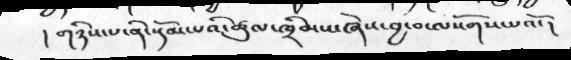། གཉིས་པ་ནི་སྡོམ་པའི་ཚུལ་ཁྲིམས་ཞེས་བྱ་བ་ལསོགས་པའོ་།
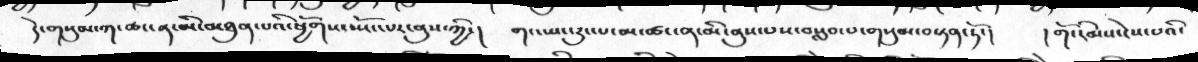དེ་གསུམ་ཀ་ཚང་ན་མི་མཐུན་པའི་ཕྱོགས་སྤོང་པར་ནུས་ཀྱི་།   གང་ཡང་རུང་པ་མ་ཚང་ན་མི་ནུས་པས་བསླབ་པ་གསུམ་བསྟན་ཏོ་།   །གོ་རིམས་ངེས་པའི་
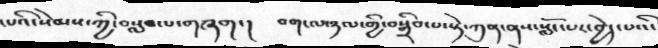་པའི་སེམས་ཀྱི་བསླབ་པ་གཞག་།   བག་ལ་ཉལ་གྱི་བསྒྲིབ་པ་སྟེ་ཀུན་ནས་སློང་པར་བྱེད་པའི་
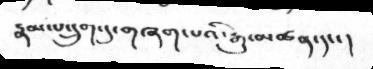རྣམ་པ་དྲུག་དུ་གཞག་པའི་རྒྱུ་མཚན་དང་།
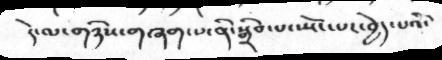དེ་ལ་གཉིས་གཞག་པ་ནི་སྒྲིབ་པ་སྤོང་པར་བྱེད་པའི་
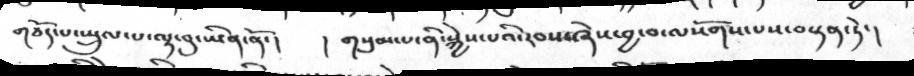གཅོད་པ་སྤྲུལ་པ་ལྟ་བུ་ཡིན་ནོ་།    ། གསུམ་པ་ནི་སྐྱེས་པའི་རབས་ཞེས་བྱ་བ་ལསོགས་པས་བསྟན་ཏེ་།
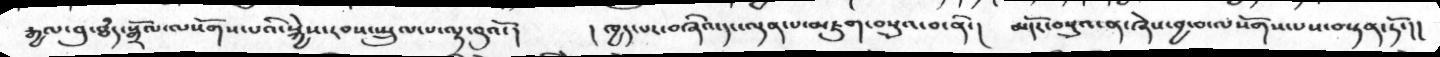རྒྱལ་བུ་ཐཾད་སྒྲོལ་ལསོགས་པའི་སྐྱེས་རབས་སྤྲུལ་པ་ལྟ་བུའོ་།   ། ཁྱད་པར་བཞིའ་དང་ལྡན་པ་མཇུག་བསྡུའ་བ་ནི་།   མདོར་བསྡུའ་ན་ཞེས་བྱ་བ་ལསོགས་པས་བསྟན་ཏོ་།།
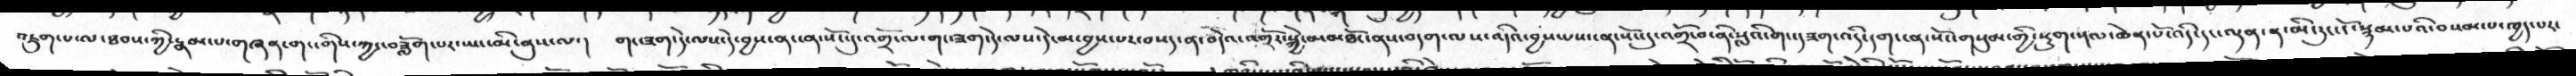འཇུག་པ་ལ་ཐབས་ཀྱི་རྣམ་པ་གཞན་གང་གིས་ཀྱང་བཟློག་པར་ཡང་མི་ནུས་ལ་།     གང་ཟག་དེ་ལས་དེ་བྱས་ན་ངན་སོང་དུ་འགྲོ་ལ་གང་ཟག་དེ་ལས་དེ་མ་བྱས་པར་བསད་ན་བདེའ་འགྲོར་སྐྱེ་བ་མཐོང་ནས་བདག་ལས་འདིའ་བྱས་པས་ངན་སོང་དུ་འགྲོ་བ་ནི་སླའི་གང་ཟག་འདི་དག་ངན་སོང་གསུམ་གྱི་སྡུག་སྔལ་ཆེན་པོ་འདི་དང་ལྡན་ན་མི་རུང་ངོ་སྙམ་པའི་བསམ་པ་ཁྱད་པར་
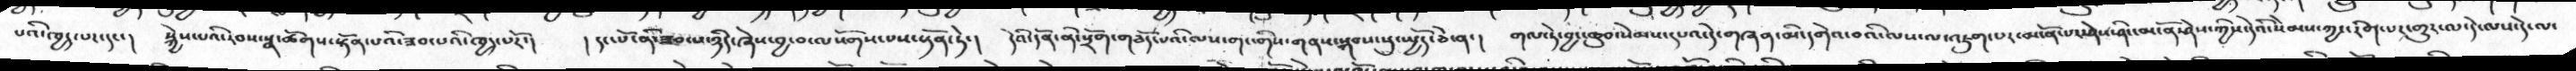པའི་ཁྱད་པར་དང་།  སྐྱེས་པའི་རབས་སྣ་ཚོགས་སྟོན་པའི་ཟབ་པའི་ཁྱད་པརོ་།  །དང་པོ་ནི་ཟབ་པ་ཉིད་ཞེས་བྱ་བ་ལསོགས་པས་སྟོན་ཏེ་།   དེའི་དོན་ནི་སྲོག་གཅོད་པའི་་ལས་གང་གིས་གནས་སྐབས་སུ་སྤྱོད་ཅེ་ན་།  གལ་ཏེ་བྱང་ཆུབ་སེམས་དཔའ་དེ་གཞན་མི་དགེ་བའི་ལས་ལ་འཇུག་པར་མངོན་པར་ཤེས་ཤིང་མངོན་ཤེས་ཀྱིས་དེའི་སེམས་ཀྱང་རིག་པར་གྱུར་ལ་དེ་ལས་དེ་ལ་
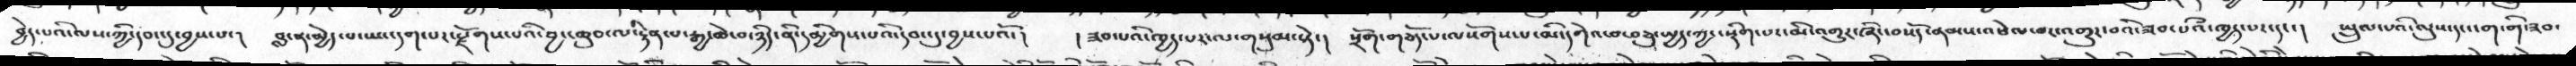བྱེད་པའི་ལས་ཀྱི་དབང་དུ་བྱས་པ་།  བླ་ན་མྱེད་པ་ཡང་དག་པར་རྫོགས་པའི་བྱང་ཆུབ་ལ་རྟེན་པ་རྒྱ་ཆེ་བ་ཉིད་ནི་དམྱིགས་པའི་དབང་དུ་བྱས་པའོ་།  །ཟབ་པའི་ཁྱད་པར་ལ་གསུམ་སྟེ་།  སྲོག་གཅོད་པ་ལསོགས་པ་མི་དགེའ་བ་བཅུ་སྤྱད་ཀྱང་སྡིག་པར་མི་འགྱུར་ཞིང་བསོད་ནམས་འཕེལ་བར་འགྱུར་བའི་ཟབ་པའྀ་ཁྱད་པར་དང་།  སྤྲུལ་པའི་ལུས་དང་ངག་གི་ཟབ་
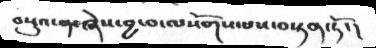བསྡུའ་ན་ཞེས་བྱ་བ་ལསོགས་པས་བསྟན་ཏོ་།
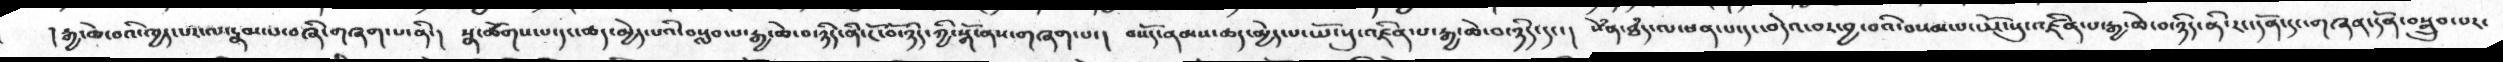། རྒྱ་ཆེ་བའི་ཁྱད་པར་ལ་རྣམ་པ་བཞི་གཞག་པ་ནི་།  སྣ་ཚོགས་པ་དང་ཚད་མྱེད་པའི་བསླབ་པ་རྒྱ་ཆེ་བ་ཉིད་ནི་ངོ་བོ་ཉིད་ཀྱི་སྒོ་ནས་གཞག་པ་།  བསོད་ནམས་ཚད་མྱེད་པ་ཡོངསུ་འཛིན་པ་རྒྱ་ཆེ་བ་ཉིད་དང་།  སེནཾ་ཐཾད་ལ་ཕན་པ་དང་བདེའ་བར་བྱ་བའི་བསམ་པ་ཡོངསུ་འཛིན་པ་རྒྱ་ཆེ་བ་ཉིད་ནི་རང་དོན་དང་གཞན་དོན་བསྒྲུབ་པར་
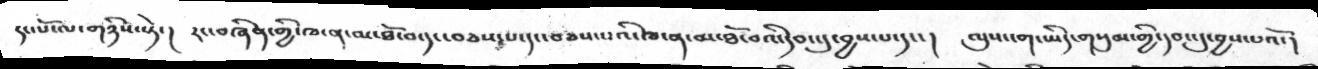དང་པོ་ལ་གཉིས་སྟེ་།     རང་བཞིན་གྱི་ཁ་ན་མ་ཐོ་བ་དང་བཅས་པ་དང་བཅས་པའི་ཁ་ན་མ་ཐོ་བའི་དབང་དུ་བྱས་པ་དང་།   ལུས་ངག་ཡིད་གསུམ་གྱི་དབང་དུ་བྱས་པའོ་།
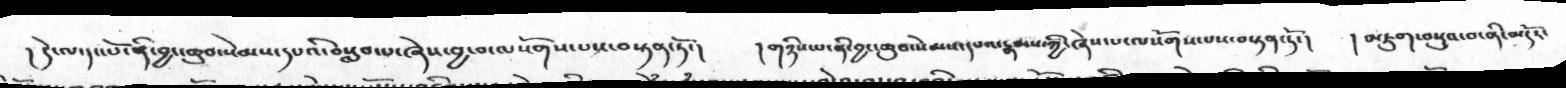། དེ་ལ་དང་པོ་ནི་བྱང་ཆུབ་སེམས་དཔའི་བསླབ་པ་ཞེས་བྱ་བ་ལསོགས་པས་བསྟན་ཏོ་།    ། གཉིས་པ་ནི་བྱང་ཆུབ་སེམས་དཔའ་རྣམས་ཀྱི་ཞེས་པ་ལསོགས་པས་བསྟན་ཏོ་།   ། མཇུག་བསྡུའ་བ་ནི་མདོར་
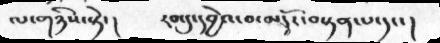ལ་གཉིས་ཏེ་།       རབ་དུ་དབྱེའ་བ་མདོར་བསྟན་པ་དང་།
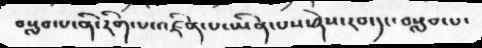བསླབ་པ་ནི་རིག་པ་འཛིན་པ་ཡིན་པས་ཤེས་རབ་དང་བསླབ་པ་
